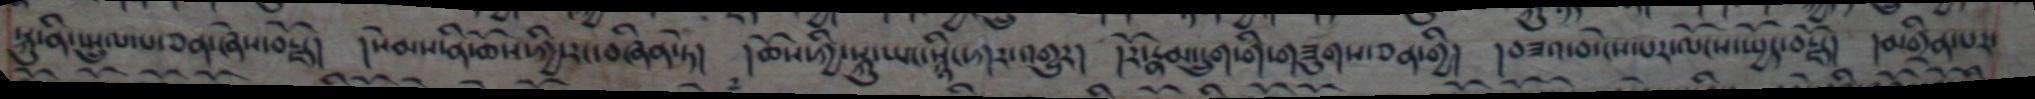སྐུ་ནི་སྤྲུལ་པ་ཅན་ཞེས་བརྗོད། །སེམས་ནི་ཆོས་ཀྱི་རང་བཞིན་ཏེ། །ཆོས་ཀྱི་སྐུ་ཡང་སྙིང་ཀར་འགྱུར། །རོ་རྣམ་དྲུག་གི་གཟུགས་ཅན་གྱི། །བཟའ་བ་ངེས་པར་ལོངས་སྤྱོད་བརྗོད། །མགྲིན་པར་
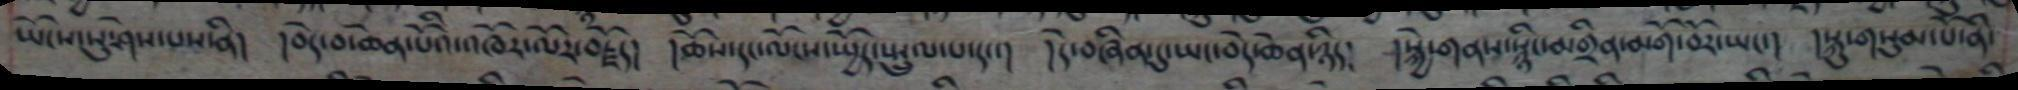ཡོངས་སུ་ཤེས་པས་ནི། །བདེ་བ་ཆེན་པོའི་འཁོར་ལོར་བརྗོད། །ཆོས་དང་ལོངས་སྤྱོད་སྤྲུལ་པ་དང་། །དེ་བཞིན་དུ་ཡང་བདེ་ཆེན་ཉིད། །སྐྱེ་གནས་སྙིང་མགྲིན་མགོ་བོར་ཡང་། །སྐུ་གསུམ་པོ་ནི་
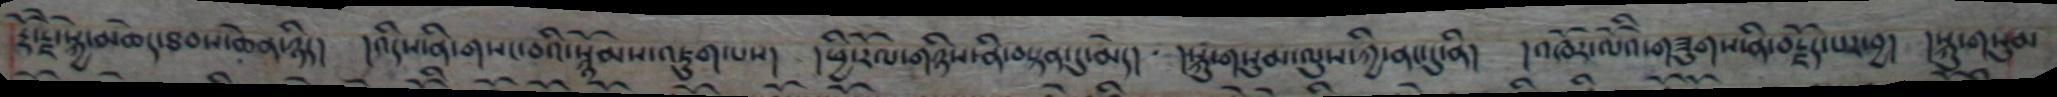རྡོ་རྗེ་སྐྱེད་མཆེད་ཐབས་ཆེན་ཉིད། །འདིས་ནི་གསང་བའི་སྙོམས་འཇུག་པས། །ཕྱི་རོལ་གཉིས་ནི་བསྟན་དུ་མེད། །སྐུ་གསུམ་ལུས་ཀྱི་ནང་དུ་ནི། །འཁོར་ལོའི་གཟུགས་ནི་བརྗོད་པར་བྱ། །སྐུ་གསུམ
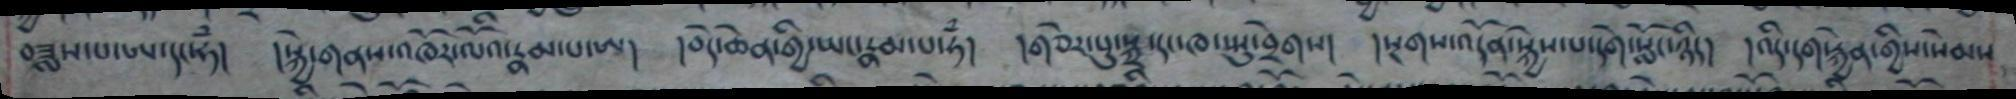བཟླས་པ་ཨ་དང་ཧཾ། །སྐྱེ་གནས་འཁོར་ལོའི་རྣམ་པ་ཨ། །བདེ་ཆེན་གྱི་ཡང་རྣམ་པ་ཧཾ། །གཅེར་པུ་སྐྲ་དང་ཁ་སྤུ་བྲེགས། །སྔགས་འདོན་སྐྱེས་པ་དགེ་སློང་ཉིད། །འདི་དག་རྐྱེན་གྱིས་སེམས
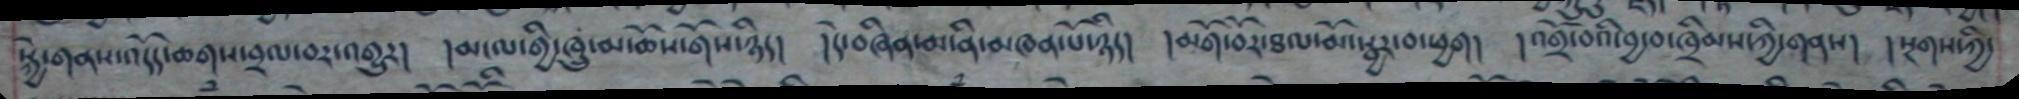སྐྱེ་གནས་འདོད་ཆགས་བྲལ་བར་འགྱུར། །མངལ་གྱི་ཁྲུ་མ་ཆོས་གོས་ཉིད། །དེ་བཞིན་མ་ནི་མཁན་པོ་ཉིད། །མགོ་བོར་ཐལ་མོ་སྦྱར་བ་ཕྱག། །འགྲོ་བའི་བྱ་བ་ཁྲིམས་ཀྱི་གནས། །སྔགས་ཀྱི་
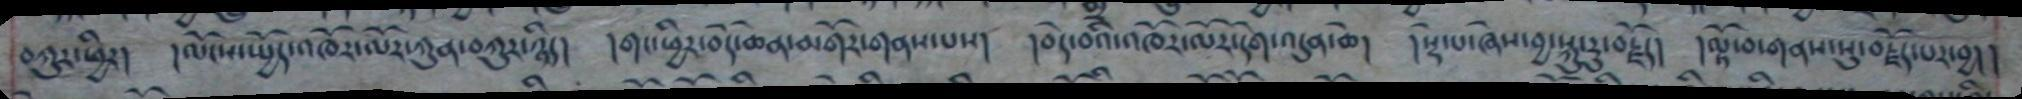བཀུར་ཕྱིར། །ལོངས་སྤྱོད་འཁོར་ལོར་ཀུན་བཀུར་ཉིད། །གང་ཕྱིར་བདེ་ཆེན་མགོར་གནས་པས། །བདེ་བའི་འཁོར་ལོར་དགེ་འདུན་ཆེ། །སྡེ་པ་ཞེས་བྱ་སྐུ་རུ་བརྗོད། །ལྟོ་བ་གནས་སུ་བརྗོད་པར་བྱ། །
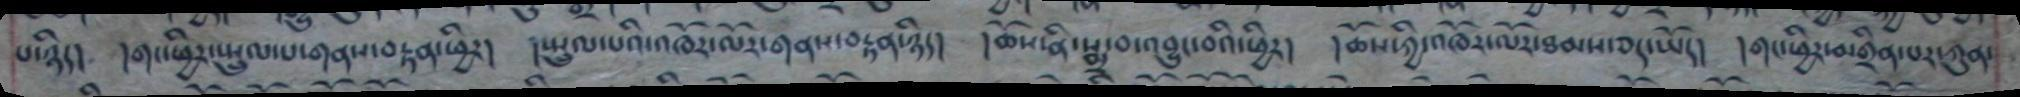པ་ཉིད། །གང་ཕྱིར་སྤྲུལ་པ་གནས་བརྟན་ཕྱིར། །སྤྲུལ་པའི་འཁོར་ལོར་གནས་བརྟན་ཉིད། །ཆོས་ནི་སྨྲ་བ་འབྱུང་བའི་ཕྱིར། །ཆོས་ཀྱི་འཁོར་ལོར་ཐམས་ཅད་ཡོད། །གང་ཕྱིར་མགྲིན་པར་ཀུན་
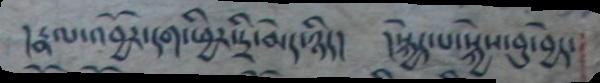།རྣལ་འབྱོར་དག་ཕྱིར་དྲི་མེད་ཉིད། །སྐྱེད་པ་སྐྱེས་བུ་བྱེད་
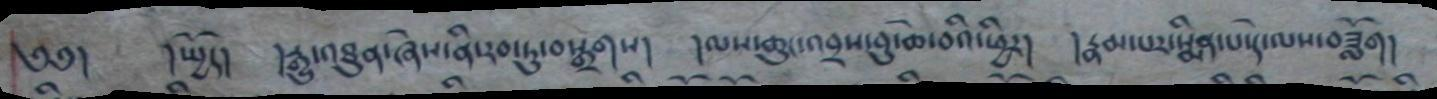༄༅། །སྤྱོད། །རྒྱུ་འཐུན་ཞེས་ནི་རབ་ཏུ་བསྒྲགས། །ལས་ཆུང་འབྲས་བུ་ཆེ་བའི་ཕྱིར། །རྣམ་པར་སྨིན་པ་དེ་ལས་བཟློག།
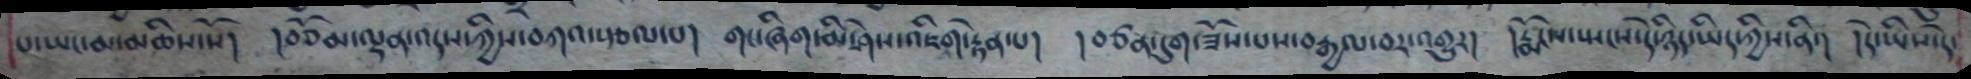པ་ཡང་མ་མཆིས་སོ། །བཅོམ་ལྡན་འདས་ཀྱིས་བཀའ་སྩལ་པ། གང་ཞིག་མི་ཤེས་འཇིག་རྟེན་པ། །བཙན་དུག་ཟོས་པས་བརྒྱལ་བར་འགྱུར། །རྨོངས་སྤངས་དེ་ཉིད་ཡིད་ཀྱིས་ནི་། །དེ་ཡིས་དེ་
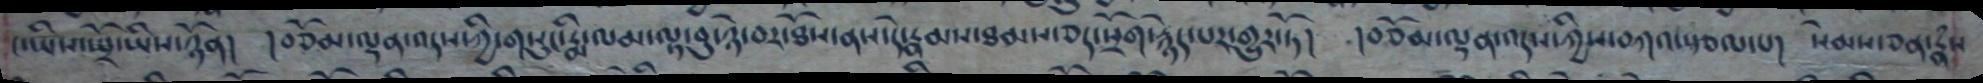ང་ཡིས་སྤྲོ་ཡིས་ཉོན། །བཅོམ་ལྡན་འདས་ཀྱི་གསུང་རྨི་ལམ་ལྟ་བུ་ཉེ་བར་ཐོས་ནས་དེ་རྣམས་ཐམས་ཅད་སྲོག་རྙེད་པར་གྱུར་ཏོ། །བཅོམ་ལྡན་འདས་ཀྱིས་བཀའ་སྩལ་པ། སེམས་ཅན་རྣཾས
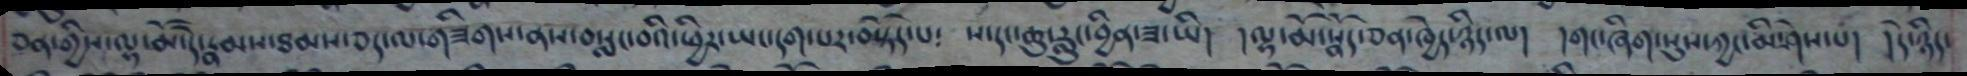ཅན་གྱིས་ལྷ་མོ་དེ་རྣམས་ཐམས་ཅད་ལ་གཟིགས་ནས་བསླང་བའི་ཕྱིར་ཡང་དག་པར་བསྟོད་པ༴ ས་དང་ཆུ་རླུང་བྱིན་ཟ་ཡི། །ལྷ་མོ་སྣོད་ཅན་ཁྱེད་ཉིད་ལ། །གང་ཞཱིག་སུས་ཀྱང་མི་ཤེས་པ། །དེ་ཉིད་
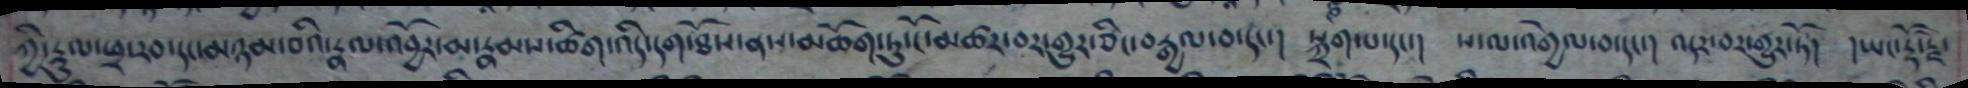ཀྱི་རྡུལ་ཕྲ་རབ་དང་མཉམ་བའི་རྣལ་འབྱོར་མ་རྣམས་ཚིག་འདི་དག་ཐོས་ནས་མཆོག་ཏུ་ངོ་མཚར་བར་གྱུར་ཅིང་བརྒྱལ་བ་དང་། སྐྲག་པ་དང་། ས་ལ་འགྱེལ་བ་དང་། འདར་བར་གྱུར་ཏོ། །ཡང་རྡོ་རྗེ་
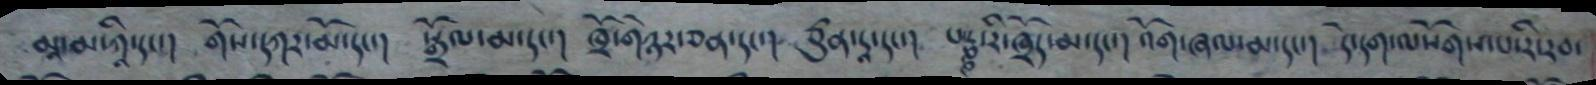མཱ་མ་ཀཱི་དང་། གོས་དཀར་མོ་དང་། སྒྲོལ་མ་དང་། ཁྲོ་གཉེར་ཅན་དང་། ཙུན་དཱ་དང་། པཎྞ་རི་ཁྲོད་མ་དང་། འོག་ཞལ་མ་དང་། དེ་དག་ལསོགས་པ་རི་རབ་
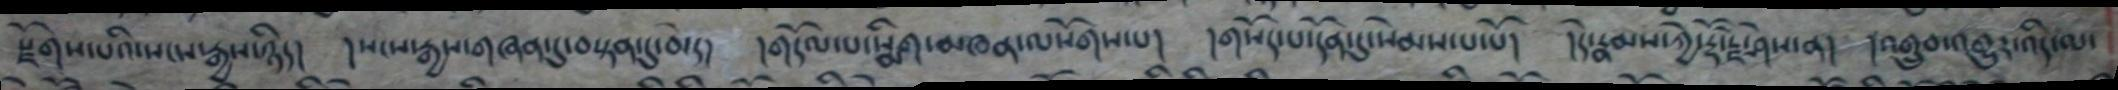སྡོགས་པའི་སངས་རྒྱས་ཉིད། །སངས་རྒྱས་གཞན་དུ་བསྟན་དུ་མེད། །གདོལ་པ་སྨིག་མཁན་ལསོགས་པ། །གསོད་པ་དོན་དུ་སེམས་པ་པོ། །དེ་རྣམས་ཀྱེ་རྡོ་རྗེ་ཤེས་ན། །འགྲུབ་འགྱུར་འདི་ལ་
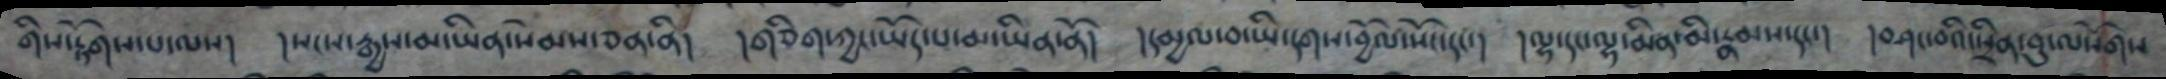གིས་རྟོགས་པ་ལས། །སངས་རྒྱས་མ་ཡིན་སེམས་ཅན་ནི། །གཅིག་ཀྱང་ཡོད་པ་མ་ཡིན་ནོ། །དམྱལ་བ་ཡི་དགས་བྱོལ་སོང་དང་། །ལྷ་དང་ལྷ་མིན་མི་རྣམས་དང་། །བཤང་བའི་སྲིན་བུ་ལསོགས་
